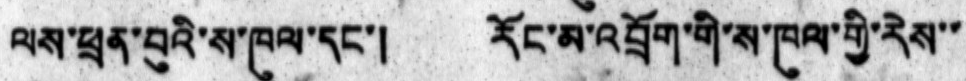ལས་ཕྲན་བུའི་ས་ཁུལ་དང་། རོང་མ་འབྲོག་གི་ས་ཁུལ་གྱི་རེས་་
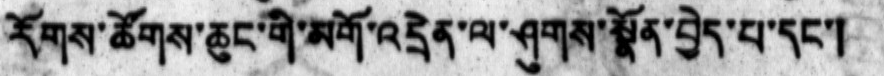རོགས་ཚོགས་ཆུང་གི་མགོ་འདྲེན་ལ་ཤུགས་སྡོན་བྱེད་པ་དང་།
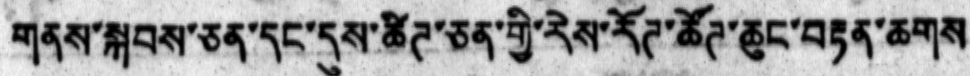གནས་སྐབས་ཅན་དང་དུས་ཚིཊ་ཅན་གྱི་རེས་རོཊ་ཚོཊ་ཆུང་བརྟན་ཆགས
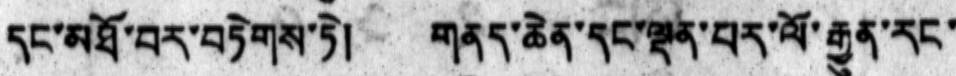དང་མཐོ་བར་བཏེགས་ཏེ། གནད་ཆེན་དང་ལྡན་པར་ལོ་རྒྱུན་རང་
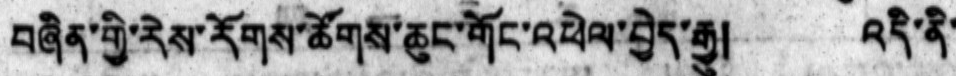བཞིན་གྱི་རེས་རོགས་ཚོགས་ཆུང་གོང་འཕེལ་བྱེད་རྒྱུ། འདི་ནི་
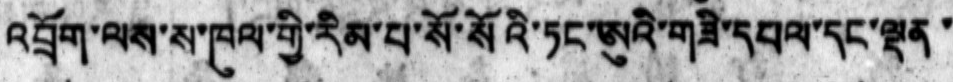འབྲོག་ལས་ས་ཁུལ་གྱི་རིམ་པ་སོ་སོའི་ཏང་ཨུའི་གཟི་དཔལ་དང་ལྡན་
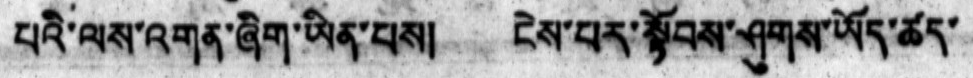པའི་ལས་འགན་ཞིག་ཡིན་པས། ངེས་པར་སྟོབས་ཤུགས་ཡོད་ཚད་
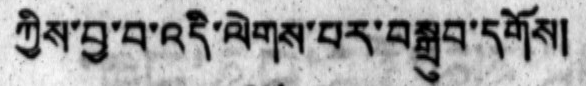ཀྱིས་བྱ་བ་འདི་ལེགས་པར་བསྒྲུབ་དགོས།
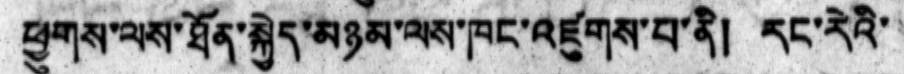ཕྱུགས་ལས་ཐོན་སྐྱེད་མཉམ་ལས་ཁང་འཛུགས་པ་ནི། རང་རེའི་
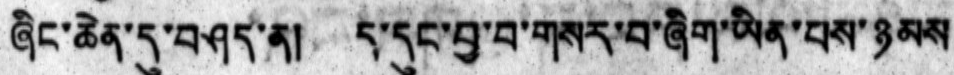ཞིང་ཆེན་དུ་བཤད་ན། ད་དུང་བྱ་བ་གསར་བ་ཞིག་ཡིན་པས་ཉམས
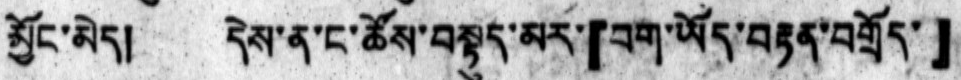མྱོང་མེད། དེས་ན་ང་ཚོས་བསྟུད་མར་ 「བག་ཡོད་བརྟན་བགྲོད་」
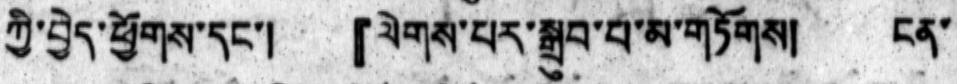ཀྱི་བྱེད་ཕྱོགས་དང་། 「ལེགས་པར་སྒྲུབ་པ་མ་གཏོགས། ངན་
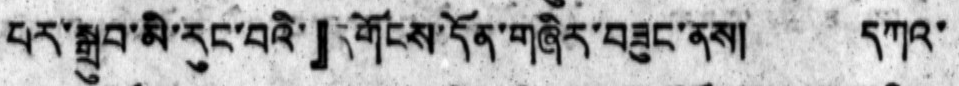པར་སྒྲུབ་མི་རུང་བའི་ 」དགོངས་དོན་གཞིར་བཟུང་ནས། དཀའ་
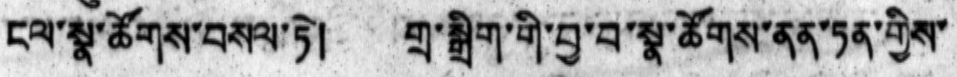ངལ་སྣ་ཚོགས་བསལ་ཏེ། གྲ་སྒྲིག་གི་བྱ་བ་སྣ་ཚོགས་ནན་ཏན་གྱིས་
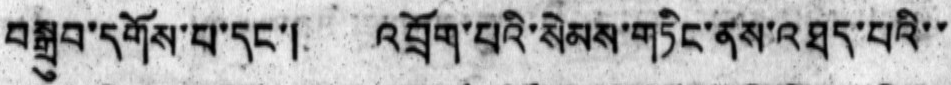བསྒྲུབ་དགོས་པ་དང་། འབྲོག་པའི་སེམས་གཏིང་ནས་འཐད་པའི་་
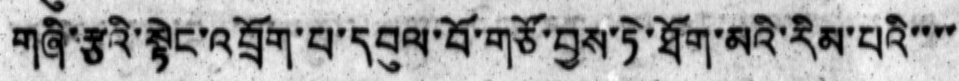གཞི་རྩའི་སྟེང་འབྲོག་པ་དབུལ་བོ་གཙོ་བྱས་ཏེ་ཐོག་མའི་རིམ་པའི་་་་
